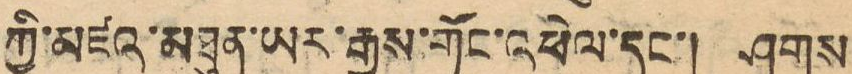ཀྱི་མཛའ་མཐུན་ཡར་རྒྱས་གོང་འཕེལ་དང་། ཤུགས
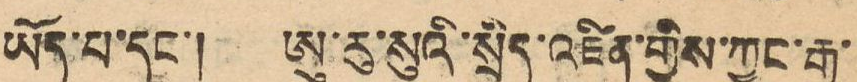ཡོད་པ་དང་། ཨུ་རུ་སུའི་སྲིད་འཛིན་གྱིས་ཀྱང་རྒྱ་
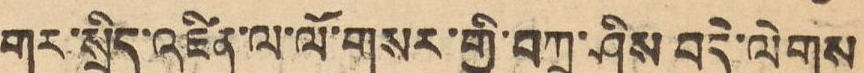གར་སྲིད་འཛིན་ལ་ལོ་གསར་གྱི་བཀྲ་ཤིས བདེ་ལེགས་
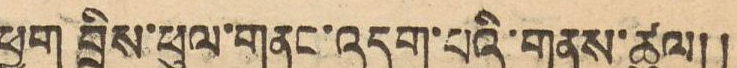ཕྱག བྲིས་ཕུལ་གནང་འདུག་པའི་གནས་ཚུལ།།
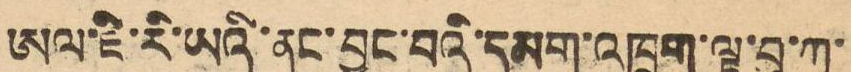ཨལ་ཇི་རི་ཡའི་ནང་བྱུང་བའི་དམག་འཁྲུག་ལྟ་བུ་ཀ་
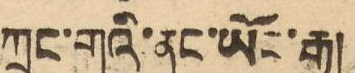ཀྲང་གའི་ནང་ཡོང་རྒྱུ།
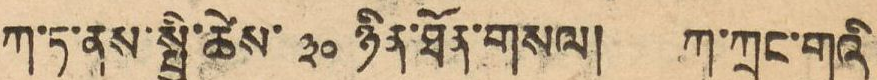ཀ་ཏ་ནས་སྤྱི་ཚེས་ ༣༠ ཉིན་ཐོན་གསལ། ཀ་ཀྲང་གའི་
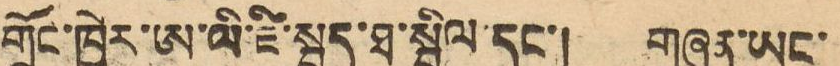གྲོང་ཁྱེར་ཨ་ལིའི་ཛི་སྦད་ཐ་སྦིལ་དང་། གཞན་ཡང་
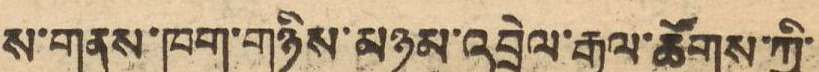ས་གནས་ཁག་གཉིས་མཉམ་འབྲེལ་རྒྱལ་ཚོགས་ཀྱི་
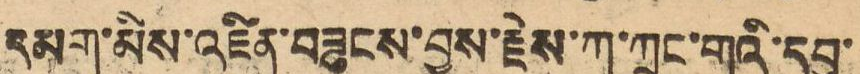དམག་མིས་འཛིན་བཟུངས་བྱས་རྗེས་ཀ་ཀྲང་གའི་དབུ་
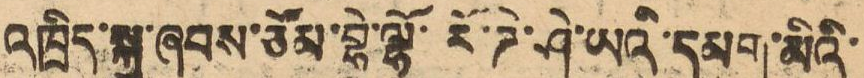འཁྲིད་སྐུ་ཞབས་ཅོམ་བྷེ་ལྷོ་རོ་ཌེ་ཤེ་ཡའི་དམག་མིའི་
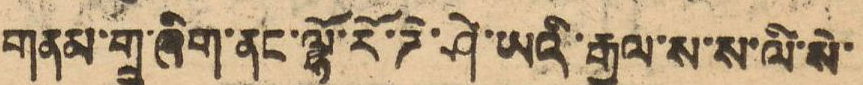གནམ་གྲུ་ཞིག་ནང་ལྷོ་རོ་ཌེ་ཤེ་ཡའི་རྒྱལ་ས་ས་ལི་སེ་
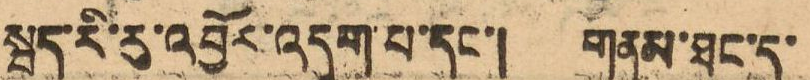སྦད་རི་རུ་འབྱོར་འདུག་པ་དང་། གནམ་ཐང་དུ་
